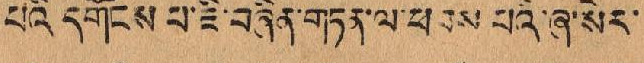པའི དགོངས པ་ཇི་བཞིན་གཏམ་ལ་ཕབས པའི་ཞ་སེར་
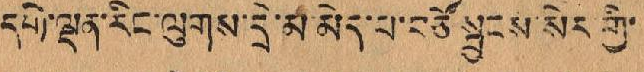དགེ་ལྡན་རིང་ལུངས་དྲེ་མ་མེད་པ་བཙོ་སྦུངས་སེར་གྱི་
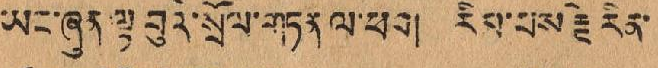ཡང་ཞུན་ལྟ་བུའི་སྲོལ་གཏན་ལ་ཕབ། རིམ་པས་རྗེ རིན་
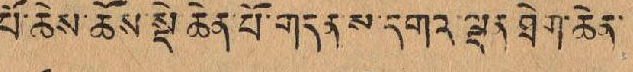པོ་ཆེས་ཆོས་སྡེ ཆེན་པོ་གདན་ས་དགའ་ལྡན ཐེག་ཆེན་
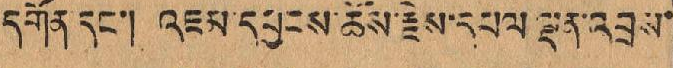དགོན་དང་། འཇམ་དབྱངས་ཆོས་རྗེས་དཔལ་ལྡན་འབྲས་
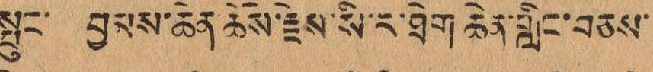སྤུང་ བྱམས་ཆེན་ཆོས་རྗེས་སི་ར་ཐེག་ཆེན་གླིང་བཅས་
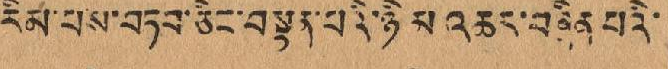རིམ་པས་བཏབ་ཅིང་བསྟན་པའི་ཉི་མ་འཆར་བཞིན་པའི་
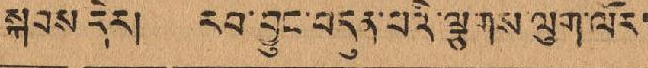སྐབས་དེར། རབ་བྱུང་བདུན་པའི་ལྕགས་ལུག་ལོར་
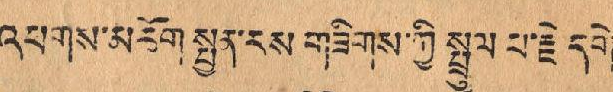འཕགས་མཆོག་སྤྱན་རས་གཟིགས་ཀྱི སྤྲུལ པ་རྗེ དགེ་
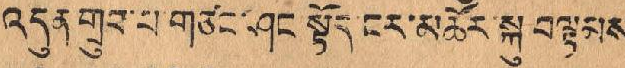འདུན་གྲུབ་པ་གཙང་ཤང་སྟོད་ངར་མཚོར་སྐུ་བལྟམས་
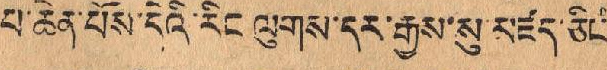པ་ཆེན་པོས་དེའི་རིང་ལུགས་དར་རྒྱས་སུ་མཛད་ཅིང་
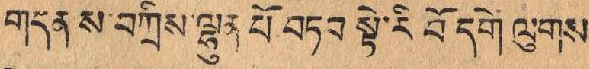གདན་ས་བཀྲིས་ལྷུན་པོ བཏབ སྟེ་རི་བོ་དགེ་ལུགས་
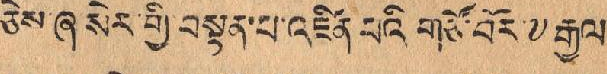ཅེས་ཞ་སེར་གྱི་བསྟན་པ་འཛིན་པའི་གཙོ་བོར་༸རྒྱལ་
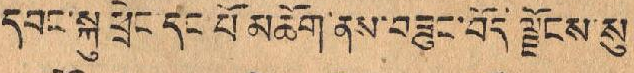དབང་སྐུ་ཕྲེང དང པོ མཆོག་ནས་བཟུང་བོད་ལྗོངས་སུ་
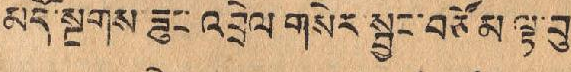མདོ་སྔགས་ཟུང་འབྲེལ་གསེར་སྦྱང་བཙོམ ལྟ་བུ་
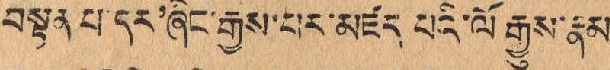བསྟན་པ་དར'ཞིང་རྒྱས་པར་མཛད པའི་ལོ་རྒྱུས་རྣམ་
